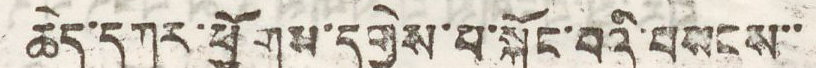ཆེད་དཀར་ཕྱོགས་དགྱེས་པ་སྐོང་བའི་བསངས་་
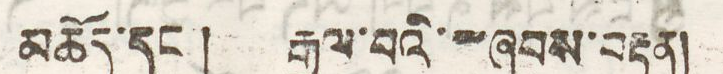མཆོད་དང་། རྒྱལ་བའི་༸ཞབས་བརྟན།
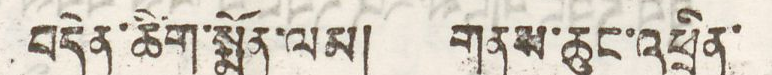བདེན་ཚིག་སྨོན་ལམ། གནས་ཆུང་འཕྲིན་
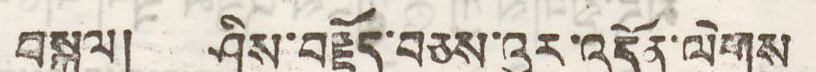བསྐུལ། ཤིས་བརྗོད་བཅས་འུར་འདོན་ལེགས
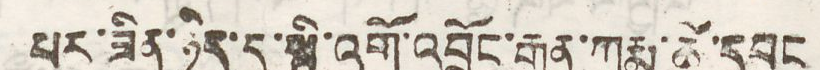པར་ཟིན་ཉིད་དུ་སྤྱི་འགོ་འབྲོང་རྒན་ཀརྨ་ཚེ་དབང
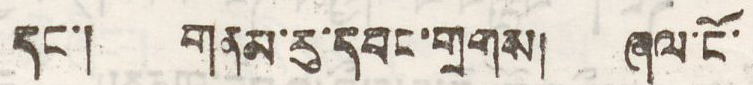དང་། གནམ་རུ་དབང་གྲགས། ཞལ་ངོ་
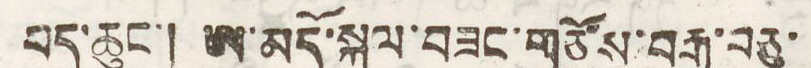པད་ཆུང་། ཨ་མདོ་སྐལ་བཟང་གཙོས་བརྒྱ་བཅུ་
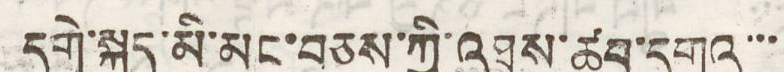དགེ་སྐད་མི་མང་བཅས་ཀྱི་འཐུས་ཚབ་དགའ་་་
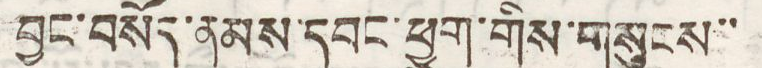བྱང་བསོད་ནམས་དབང་ཕྱུག་གིས་གསུངས་་
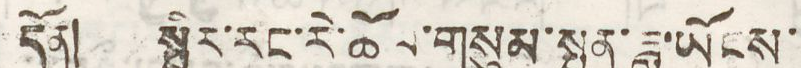དོན། སྤྱིར་རང་རེ་ཆོལ་གསུམ་སྤུན་ཟླ་ཡོངས་
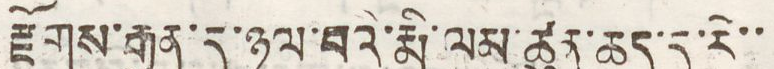རྫོགས་རྒྱུན་དུ་ཉལ བའི་རྨི་ལམ་ཚུན་ཆད་དུ་རེ་་
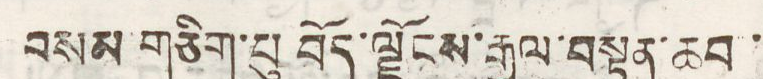བསམ གཅིག་པུ བོད་ལྗོངས་རྒྱལ་བསྟན་ཆབ་
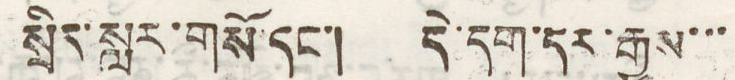སྲིད་སླར་གསོ་དང་། དེ་དག་དར་རྒྱས་་་
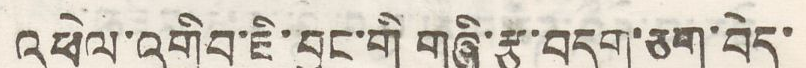འཕེལ་འགྲིབ་ཇི་བྱུང་གི གཞི་རྩ་བདག་ཅག་བེད་
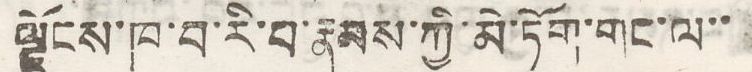ལྗོངས་ཁ་བ་རི་བ་རྣམས་ཀྱི་མེ་ཏེག་གང་ལ་་
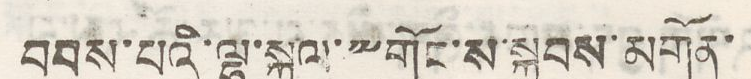བབས་པའི་ལྷ་སྐལ་༸གོང་ས་སྐྱབས་མགོན་
